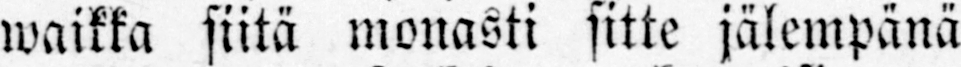waikka siitä monasti sitte jälempänä
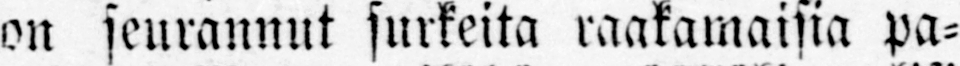on seurannut surkeita raakamaisia pa-
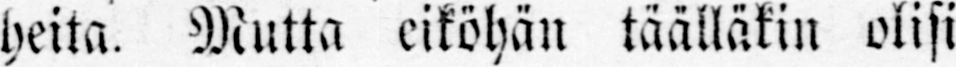heita. Mutta eiköhän täälläkin olisi
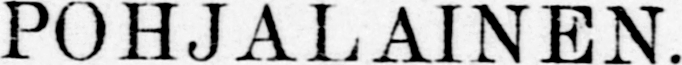POHJALAINEN.
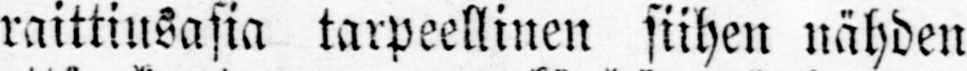raittiusasia tarpeellinen siihen nähden
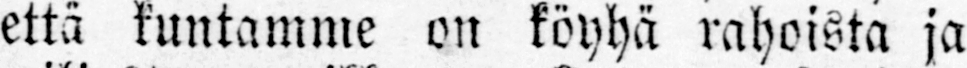että kuntamme en köyhä rahoista ja
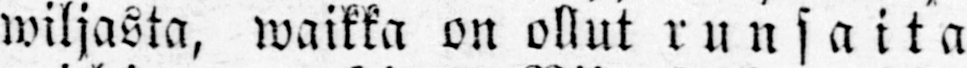wiljasta, waikka on ollut runsaita
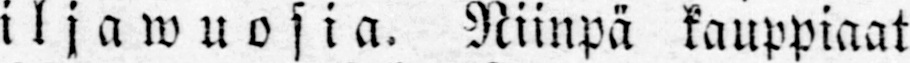wiljawuosia. Niinpä kauppiaat
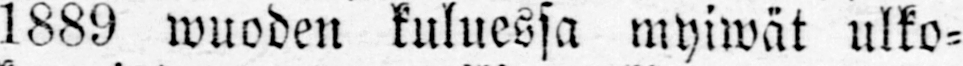1889 wuoden kuluessa myiwät ulko-
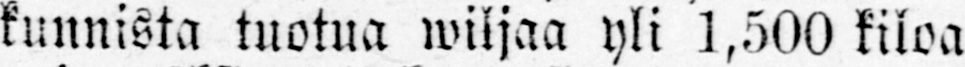kunnista tuotua wiljaa yli 1,500 kiloa
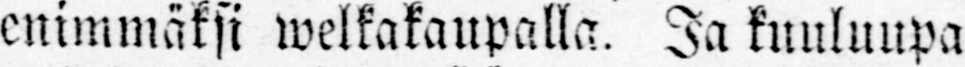enimmäksi welkakaupalla. Ja kuuluupa
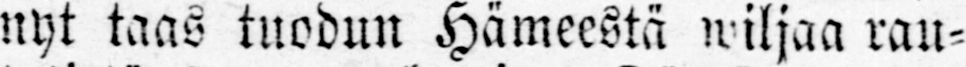nyt taas tuodun Hämeestä wiljaa rau-
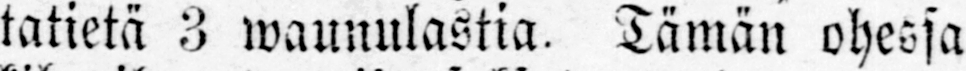tatietä 3 waunulastia. Tämän ohessa
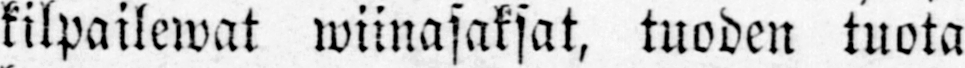kilpailewat wiinasaksat, tuoden tuota
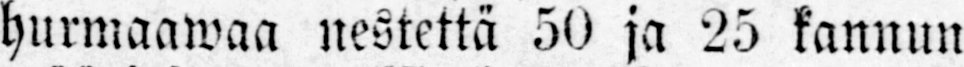hurmaawaa nestettä 50 ja 25 kannun
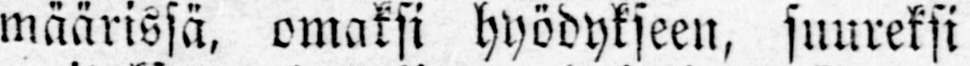määrissä, omaksi hyödykseen, suureksi
